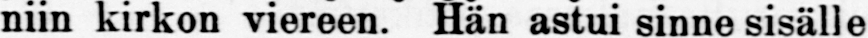niin kirkon viereen. Hän astui sinne sisälle
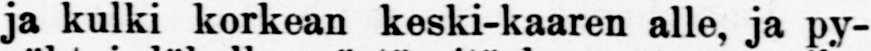ja kulki korkean keski-kaaren alle, ja py-
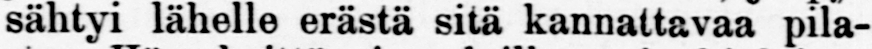sähtyi lähelle erästä sitä kannattavaa pila-
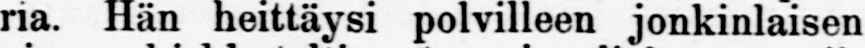ria. Hän heittäysi polvilleen jonkinlaisen
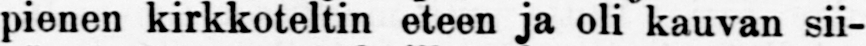pienen kirkkoteltin eteen ja oli kauvan sii-
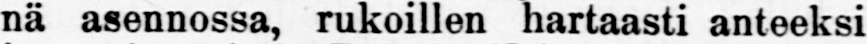nä asennossa, rukoillen hartaasti anteeksi
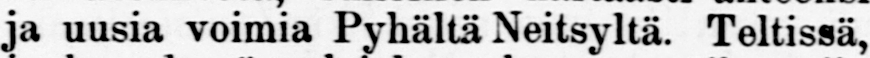ja uusia voimia Pyhältä Neitsyltä. Teltissä,
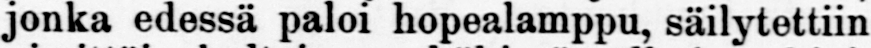jonka edsssä paloi hopealamppu, säilytettiin
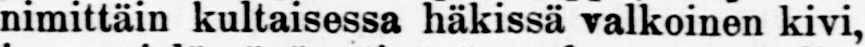nimittäin kultaisessa häkissä valkoinen kivi,
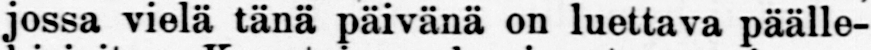jossa vielä tänä päivänä on luettava päälle-
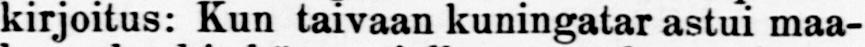kirjoitus: Kun taivaan kuningatar astui maa-
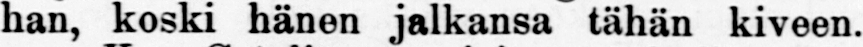han, koski hänen jalkansa tähän kiveen.
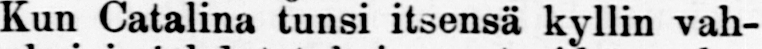Kun Catalina tunsi itsensä kyllin vah-
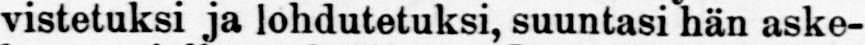vistetuksi ja lohdutetuksi, suuntasi hän aske-
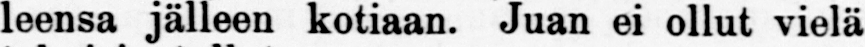leensa jälleen kotiaan. Juan ei ollut vielä
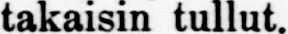takaisin tullut.
